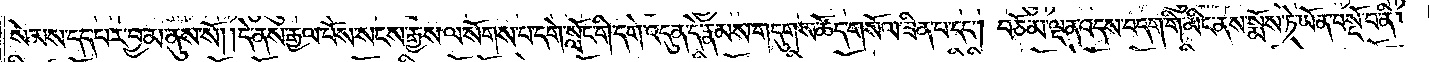སེམས་དད་པར་བྱ་མ་ནུས་སོ། །དེ་ནས་རྒྱལ་པོས་སངས་རྒྱས་ལ་སོགས་པ་དགེ་སློང་གི་དགེ་འདུན་དེ་རྣམས་གདུགས་ཚོད་གསོལ་ཟིན་པ་དང༌། བཅོམ་ལྡན་འདས་བདག་གི་མིང་ནས་སྨོས་ཏེ་ཡོན་བསྔོ་བ་ནི།
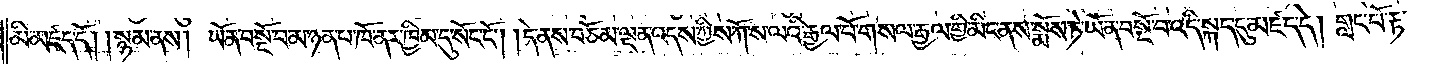མི་མཛད་དོ། །སྙམ་ནས། ཡོན་བསྔོ་བ་མ་ཉན་པ་ཁོ་ནར་ཁྱིམ་དུ་སོང་ངོ༌། །དེ་ནས་བཅོམ་ལྡན་འདས་ཀྱིས་ཀོ་ས་ལའི་རྒྱལ་པོ་གསལ་རྒྱལ་གྱི་མིང་ནས་སྨོས་ཏེ་ཡོན་བསྔོ་བ་འདི་སྐད་དུ་མཛད་དེ། གླང་པོ་རྟ་
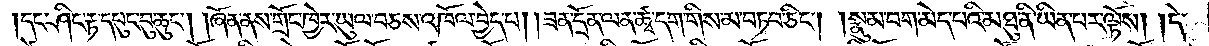།དང་ཤིང་རྟ་དཔུང་བུ་ཆུང༌། །ཞོན་ནས་གྲོང་ཁྱེར་ཡུལ་བཅས་འཁོལ་བྱེད་པ། །ཟན་དྲོན་ལན་ཚྭ་དག་གིས་མ་བཏབ་ཅིང༌། །སྣུམ་བག་མེད་པའི་མཐུ་ནི་ཡིན་པར་ལྟོས། །དེ་
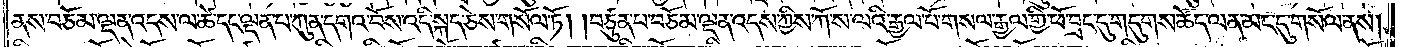ནས་བཅོམ་ལྡན་འདས་ལ་ཚེ་དང་ལྡན་པ་ཀུན་དགའ་བོས་འདི་སྐད་ཅེས་གསོལ་ཏོ། །བཙུན་པ་བཅོམ་ལྡན་འདས་ཀྱིས་ཀོ་ས་ལའི་རྒྱལ་པོ་གསལ་རྒྱལ་གྱི་ཕོ་བྲང་དུ་གདུགས་ཚོད་ལན་མང་དུ་གསོལ་ནས།
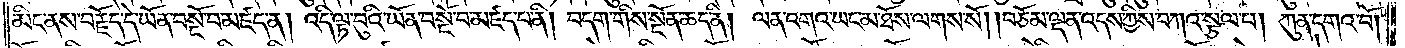མིང་ནས་བརྗོད་དེ་ཡོན་བསྔོ་བ་མཛད་ན། འདི་ལྟ་བུའི་ཡོན་བསྔོ་བ་མཛད་པ་ནི། བདག་གིས་སྔོན་ཆད་ནི། ལན་འགའ་ཡང་མ་ཐོས་ལགས་སོ། །བཅོམ་ལྡན་འདས་ཀྱིས་བཀའ་སྩལ་པ། ཀུན་དགའ་བོ།
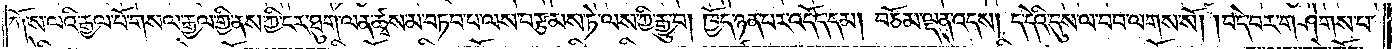ཀོ་ས་ལའི་རྒྱལ་པོ་གསལ་རྒྱལ་གྱི་ནས་ཀྱི་ངར་ཐུག་ལན་ཚྭས་མ་བཏབ་པ་ལས་བརྩམས་ཏེ་ལས་ཀྱི་རྒྱུ་བ། ཁྱོད་ཉན་པར་འདོད་དམ། བཅོམ་ལྡན་འདས། ད་དེའི་དུས་ལ་བབ་ལགས་སོ། །བདེ་བར་གཤེགས་པ་
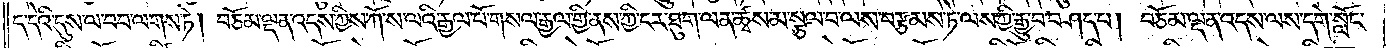ད་དེའི་དུས་ལ་བབ་ལགས་ཏེ། བཅོམ་ལྡན་འདས་ཀྱིས་ཀོ་ས་ལའི་རྒྱལ་པོ་གསལ་རྒྱལ་གྱི་ནས་ཀྱི་ངར་ཐུག་ལ་ཚྭས་མ་སྩལ་བ་ལས་བརྩམས་ཏེ་ལས་ཀྱི་རྒྱུ་བ་བཤད་པ། བཅོམ་ལྡན་འདས་ལས་དགེ་སློང་
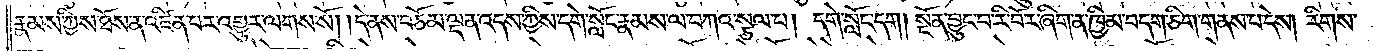རྣམས་ཀྱིས་ཐོས་ན་འཛིན་པར་འགྱུར་ལགས་སོ། །དེ་ནས་བཅོམ་ལྡན་འདས་ཀྱིས་དགེ་སློང་རྣམས་ལ་བཀའ་སྩལ་པ། དགེ་སློང་དག། སྔོན་བྱུང་བ་རི་བོར་ཞིག་ན་ཁྱིམ་བདག་ཅིག་གནས་པ་དེས། རིགས་
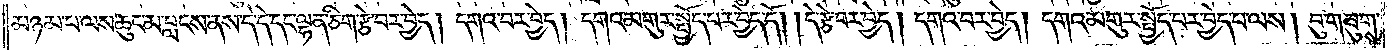མཉམ་པ་ལས་ཆུང་མ་བླངས་ནས་དེ་དེ་དང་ལྷན་ཅིག་རྩེ་བར་བྱེད། དགའ་བར་བྱེད། དགའ་མགུར་སྤྱོད་པར་བྱེད་དོ། །དེ་རྩེ་བར་བྱེད། དགའ་བར་བྱེད། དགའ་མགུར་སྤྱོད་པར་བྱེད་པ་ལས། བུ་གཟུགས་
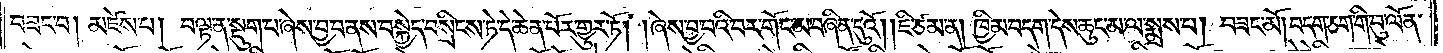བཟང་བ། མཛེས་པ། བལྟ་ན་སྡུག་པ་ཞེས་བྱ་བ་ནས་བསྐྱེད་བསྲིངས་ཏེ་དེ་ཆེན་པོར་གྱུར་ཏོ། །ཞེས་བྱ་བའི་བར་གོང་མ་བཞིན་དུའོ། །ཇི་ཙམ་ན། ཁྱིམ་བདག་དེས་ཆུང་མ་ལ་སྨྲས་པ། བཟང་མོ། བདག་ཅག་གི་བུ་ལོན་
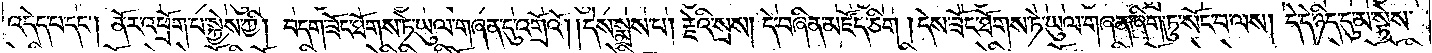འདེད་པ་དང༌། ནོར་འཕྲོག་པ་སྐྱེས་ཀྱི། བདག་ཟོང་ཐོགས་ཏེ་ཡུལ་གཞན་དུ་འགྲོའོ། །དེས་སྨྲས་པ། རྗེའི་སྲས། དེ་བཞིན་མཛོད་ཅིག །དེས་ཟོང་ཐོགས་ཏེ་ཡུལ་གཞན་ཞིག་ཏུ་སོང་བ་ལས། དེ་དེ་ཉིད་དུ་མ་སྟེས་
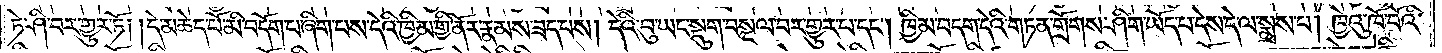ཏེ་ཤི་བར་གྱུར་ཏོ། །དེ་མཆེད་པོ་མི་བདོག་པ་ཞིག་པས་དེའི་ཁྱིམ་གྱི་ནོར་རྣམས་ཟད་པས། དེའི་བུ་ཡང་སྡུག་བསྔལ་བར་གྱུར་པ་དང༌། ཁྱིམ་བདག་དེའི་གཏན་གྲོགས་ཤིག་ཡོད་པ་དེས་དེ་ལ་སྨྲས་པ། ཁྱེའུ་ཁོ་བོའི་
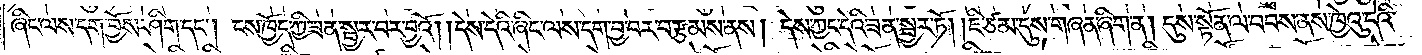ཞིང་ལས་དག་བྱོས་ཤིག་དང༌། ངས་ཁྱོད་ཀྱི་ཟན་སྦྱར་བར་བྱའོ། །དེས་དེའི་ཞིང་ལས་དག་བྱ་བར་བརྩམས་ནས། དེས་ཀྱང་དེའི་ཟན་སྦྱར་ཏོ། །ཇི་ཙམ་དུས་གཞན་ཞིག་ན། དུས་སྟོན་ལ་བབས་ནས་ཁྱེའུ་དེའི་
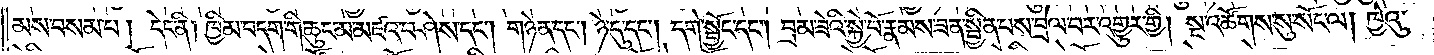མས་བསམ་པ། དེང་ནི། ཁྱིམ་བདག་གི་ཆུང་མ་མཛའ་བཤེས་དང༌། གཉེན་དང༌། ཉེ་དུ་དང༌། དགེ་སྦྱོང་དང༌། བྲམ་ཟེའི་སྐྱེ་བོ་རྣམས་ཟན་སྦྱིན་པས་བྲེལ་བར་འགྱུར་གྱི། སྔ་འཚོགས་སུ་སོང་ལ། ཁྱེའུ་
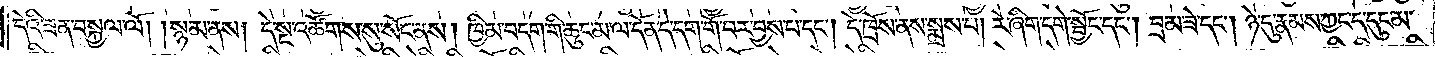དེའི་ཟན་བསྐྱལ་ལོ། །སྙམ་ནས། དེ་སྔ་འཚོགས་སུ་སོང་ནས། ཁྱིམ་བདག་གི་ཆུང་མ་ལ་དོན་དེ་དག་གོ་བར་བྱས་པ་དང༌། དེ་ཁྲོས་ནས་སྨྲས་པ། རེ་ཞིག་དགེ་སྦྱོང་དང༌། བྲམ་ཟེ་དང༌། ཉེ་དུ་རྣམས་ཀྱང་ད་དུང་མ་
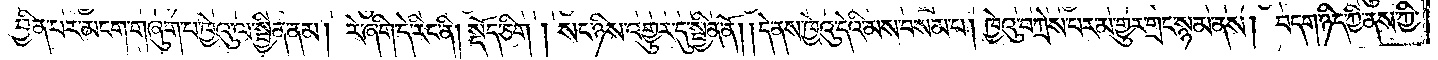བྱིན་པར་མངག་གཞུག་པ་ཁྱེའུ་ལ་སྦྱིན་ནམ། རེ་ཞིག་དེ་རིང་ནི། སྡོད་ཅིག །སང་ཉིས་འགྱུར་དུ་སྦྱིན་ནོ། །དེ་ནས་ཁྱེའུ་དེའི་མས་བསམ་པ། ཁྱེའུ་བཀྲེས་པར་མ་གྱུར་གྲང་སྙམ་ནས། བདག་ཉིད་ཀྱི་ནས་ཀྱི་
